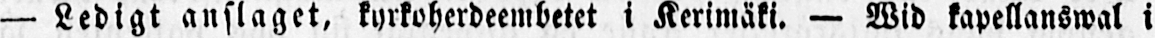— Ledigt anslaget, kyrkoherdeembetet i Kerimäki. — Wid kapellanswal i
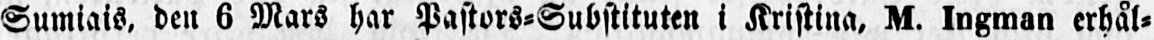Sumiais, den 6 Mars har Pastors-Substituten i Kristina, M. Ingman erhål-
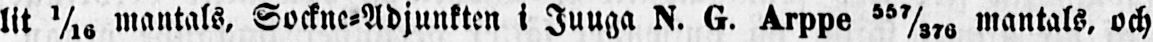lit 1/16 mantals, Sockne-Adjunkten i Juuga N. G. Arppe 557/376 mantals, och
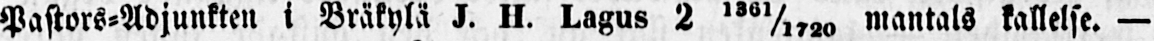Pastors-Adjunkten i Bräkylä J. H. Lagus 2 1361/1720 mantals kallelse. —
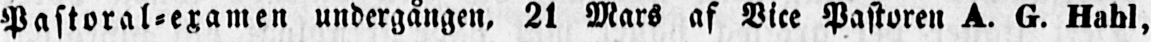Pastoral-examen undergången, 21 Mars af Vice Pastoren A. G. Hahl,
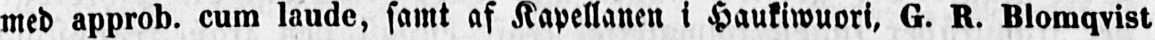med approb. cum laude, samt af Kapellanen i Haukiwuori, G. R. Blomqvist
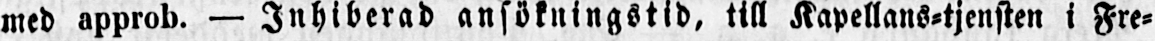med approb. — Inhiberad ansökningstid, till Kapellans-tjensten i Fre-
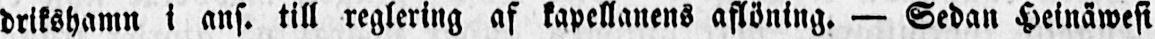drikshamn i ans. till reglering af kapellanens aflöning. — Sedan Heinäwesi
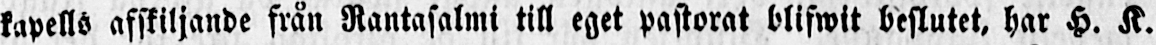kapells afskiljande från Rantasalmi till eget pastorat blifwit beslutet, har H. K.
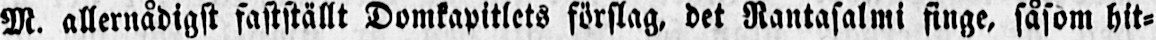M. allernådigst fastställt Domkapitlets förslag, det Rantasalmi finge, såsom hit-
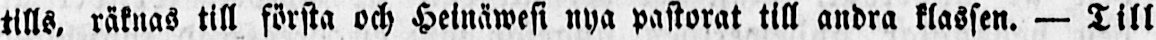tills, räknas till första och Heinäwesi nya pastorat till andra klassen. — Till
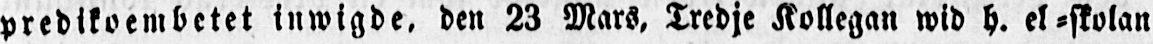predikoembetet inwigde, den 23 Mars, Tredje Kollegan wid h. el-skolan
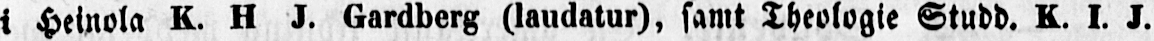i Heinola K. H J. Gardberg (laudatur), samt Theologie Studd. K. I. J.
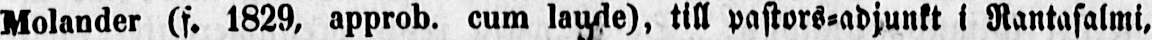Molander (f. 1829, approb. cum laude), till pastors-adjunkt i Rantasalmi,
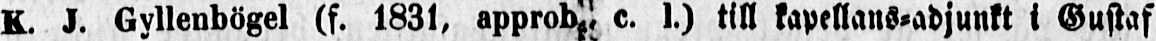K. J. Gyllenbögel (f. 183l, approb. c. l.) till kapellans-adjunkt i Gustaf
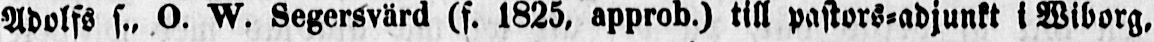Adolfs s., O. W. Segersvärd (f. 1825, approb.) till pastors-adjunkt i Wiborg.
